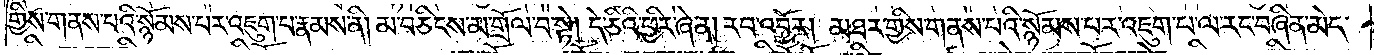གྱིས་གནས་པའི་སྙོམས་པར་འཇུག་པ་རྣམས་ནི། མ་བཅིངས་མ་གྲོལ་བ་སྟེ། དེ་ཅིའི་ཕྱིར་ཞེ་ན། རབ་འབྱོར། མཐར་གྱིས་གནས་པའི་སྙོམས་པར་འཇུག་པ་ལ་རང་བཞིན་མེད་
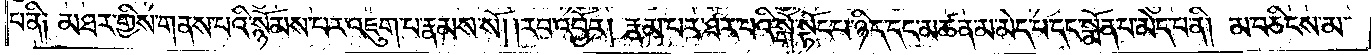པ་ནི༑ མཐར་གྱིས་གནས་པའི་སྙོམས་པར་འཇུག་པ་རྣམས་སོ། །རབ་འབྱོར། རྣམ་པར་ཐར་པའི་སྒོ་སྟོང་པ་ཉིད་དང་མཚན་མ་མེད་པ་དང་སྨོན་པ་མེད་པ་ནི། མ་བཅིངས་མ་
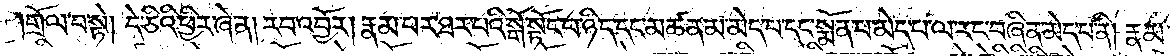གྲོལ་བ་སྟེ། དེ་ཅིའི་ཕྱིར་ཞེ་ན། རབ་འབྱོར། རྣམ་པར་ཐར་པའི་སྒོ་སྟོང་པ་ཉིད་དང་མཚན་མ་མེད་པ་དང་སྨོན་པ་མེད་པ་ལ་རང་བཞིན་མེད་པ་ནི། རྣམ་
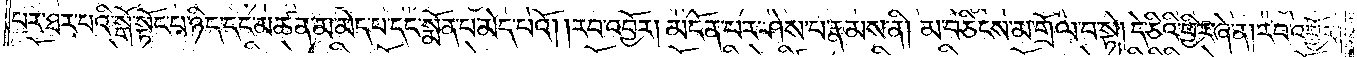པར་ཐར་པའི་སྒོ་སྟོང་པ་ཉིད་དང་མཚན་མ་མེད་པ་དང་སྨོན་པ་མེད་པའོ། །རབ་འབྱོར། མངོན་པར་ཤེས་པ་རྣམས་ནི། མ་བཅིངས་མ་གྲོལ་བ་སྟེ། དེ་ཅིའི་ཕྱིར་ཞེ་ན། རབ་འབྱོར།
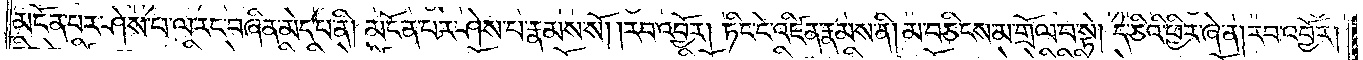མངོན་པར་ཤེས་པ་ལ་རང་བཞིན་མེད་པ་ནི། མངོན་པར་ཤེས་པ་རྣམས་སོ། །རབ་འབྱོར། ཏིང་ངེ་འཛིན་རྣམས་ནི། མ་བཅིངས་མ་གྲོལ་བ་སྟེ། དེ་ཅིའི་ཕྱིར་ཞེ་ན། རབ་འབྱོར།
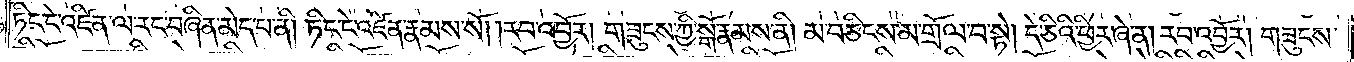ཏིང་ངེ་འཛིན་ལ་རང་བཞིན་མེད་པ་ནི། ཏིང་ངེ་འཛིན་རྣམས་སོ། །རབ་འབྱོར། གཟུངས་ཀྱི་སྒོ་རྣམས་ནི། མ་བཅིངས་མ་གྲོལ་བ་སྟེ། དེ་ཅིའི་ཕྱིར་ཞེ་ན། རབ་འབྱོར། གཟུངས་
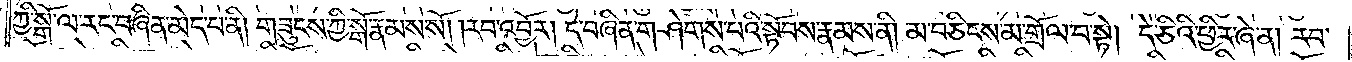ཀྱི་སྒོ་ལ་རང་བཞིན་མེད་པ་ནི། གཟུངས་ཀྱི་སྒོ་རྣམས་སོ། །རབ་འབྱོར། དེ་བཞིན་གཤེགས་པའི་སྟོབས་རྣམས་ནི། མ་བཅིངས་མ་གྲོལ་བ་སྟེ། དེ་ཅིའི་ཕྱིར་ཞེ་ན། རབ་
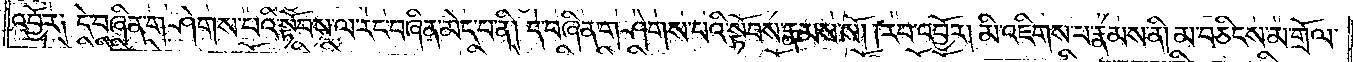འབྱོར༑ དེ་བཞིན་གཤེགས་པའི་སྟོབས་ལ་རང་བཞིན་མེད་པ་ནི། དེ་བཞིན་གཤེགས་པའི་སྟོབས་རྣམས་སོ། །རབ་འབྱོར། མི་འཇིགས་པ་རྣམས་ནི། མ་བཅིངས་མ་གྲོལ་
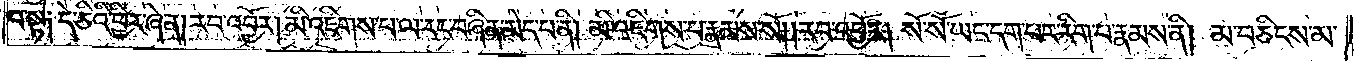བ་སྟེ༑ དེ་ཅིའི་ཕྱིར་ཞེ་ན། རབ་འབྱོར། མི་འཇིགས་པ་ལ་རང་བཞིན་མེད་པ་ནི། མི་འཇིགས་པ་རྣམས་སོ། །རབ་འབྱོར། སོ་སོ་ཡང་དག་པར་རིག་པ་རྣམས་ནི། མ་བཅིངས་མ་
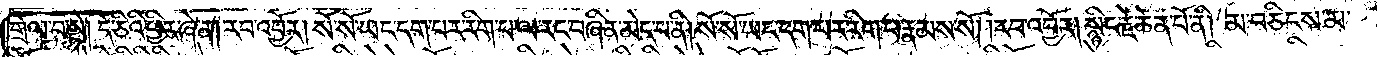གྲོལ་བ་སྟེ། དེ་ཅིའི་ཕྱིར་ཞེ་ན། རབ་འབྱོར། སོ་སོ་ཡང་དག་པར་རིག་པ་ལ་རང་བཞིན་མེད་པ་ནི། སོ་སོ་ཡང་དག་པར་རིག་པ་རྣམས་སོ། །རབ་འབྱོར། སྙིང་རྗེ་ཆེན་པོ་ནི། མ་བཅིངས་མ་
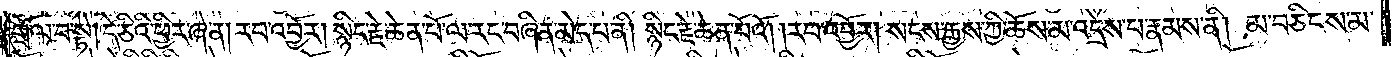གྲོལ་བ་སྟེ། དེ་ཅིའི་ཕྱིར་ཞེ་ན། རབ་འབྱོར། སྙིང་རྗེ་ཆེན་པོ་ལ་རང་བཞིན་མེད་པ་ནི། སྙིང་རྗེ་ཆེན་པོའོ། །རབ་འབྱོར། སངས་རྒྱས་ཀྱི་ཆོས་མ་འདྲེས་པ་རྣམས་ནི། མ་བཅིངས་མ་
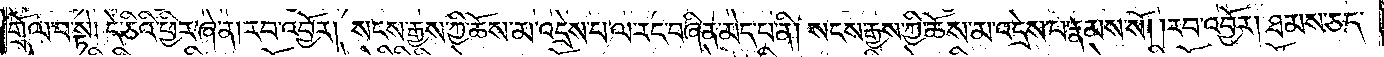གྲོལ་བ་སྟེ། དེ་ཅིའི་ཕྱིར་ཞེ་ན། རབ་འབྱོར། སངས་རྒྱས་ཀྱི་ཆོས་མ་འདྲེས་པ་ལ་རང་བཞིན་མེད་པ་ནི། སངས་རྒྱས་ཀྱི་ཆོས་མ་འདྲེས་པ་རྣམས་སོ། །རབ་འབྱོར། ཐམས་ཅད་
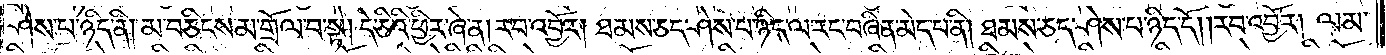ཤེས་པ་ཉིད་ནི། མ་བཅིངས་མ་གྲོལ་བ་སྟེ། དེ་ཅིའི་ཕྱིར་ཞེ་ན། རབ་འབྱོར། ཐམས་ཅད་ཤེས་པ་ཉིད་ལ་རང་བཞིན་མེད་པ་ནི། ཐམས་ཅད་ཤེས་པ་ཉིད་དོ། །རབ་འབྱོར། ལམ་
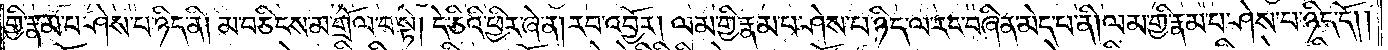གྱི་རྣམ་པ་ཤེས་པ་ཉིད་ནི། མ་བཅིངས་མ་གྲོལ་བ་སྟེ། དེ་ཅིའི་ཕྱིར་ཞེ་ན། རབ་འབྱོར། ལམ་གྱི་རྣམ་པ་ཤེས་པ་ཉིད་ལ་རང་བཞིན་མེད་པ་ནི། ལམ་གྱི་རྣམ་པ་ཤེས་པ་ཉིད་དོ། །
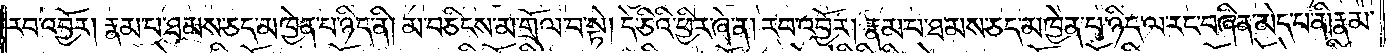རབ་འབྱོར། རྣམ་པ་ཐམས་ཅད་མཁྱེན་པ་ཉིད་ནི། མ་བཅིངས་མ་གྲོལ་བ་སྟེ། དེ་ཅིའི་ཕྱིར་ཞེ་ན། རབ་འབྱོར། རྣམ་པ་ཐམས་ཅད་མཁྱེན་པ་ཉིད་ལ་རང་བཞིན་མེད་པ་ནི། རྣམ་
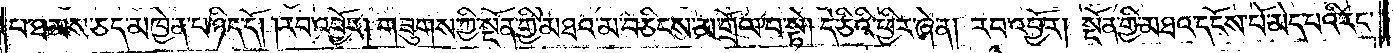པ་ཐམས་ཅད་མཁྱེན་པ་ཉིད་དོ། །རབ་འབྱོར། གཟུགས་ཀྱི་སྔོན་གྱི་མཐའ་མ་བཅིངས་མ་གྲོལ་བ་སྟེ། དེ་ཅིའི་ཕྱིར་ཞེ་ན། རབ་འབྱོར། སྔོན་གྱི་མཐའ་དངོས་པོ་མེད་པའི་རང་
